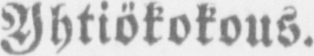Yhtiökokous.
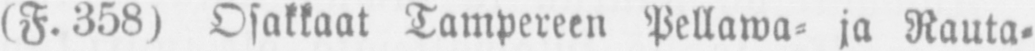(F. 358) Osakkaat Tampereen Pellawa- ja Rauta-
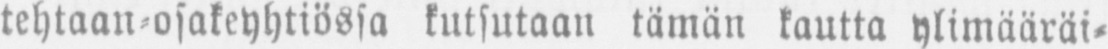tehtaan-osakeyhtiössa kutsutaan tämän kautta ylimääräi-
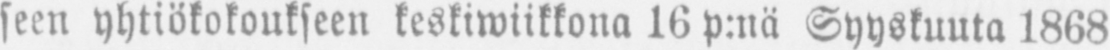seen yhtiökokoukseen keskiwiikkona 16 p:nä Syyskuuta 1868
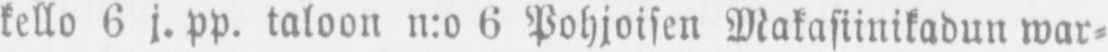kello 6 j. pp. taloon n:o 6 Pohjoisen Makasiinikadun war-
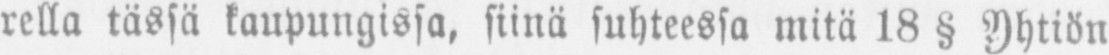rella tässä kaupungissa, siinä suhteessa mitä 18 § Yhtiön
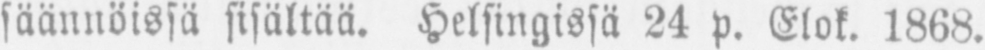säännöissä sisältää. Helsingissä 24 p. Elok. 1868.
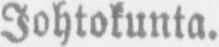Johtokunta.
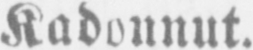Kadonnut.
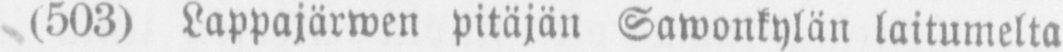(503) Lappajärwen pitäjän Sawonkylän laitumelta
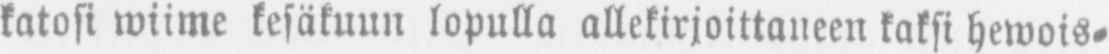katosi wiime kesäkuun lopulla allekirjoittaneen kaksi hewois-
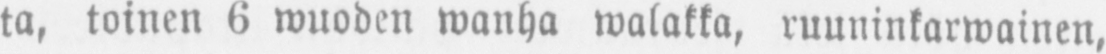ta, toinen 6 wuoden wanha walakka, ruuninkarwainen,
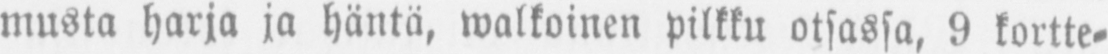musta harja ja häntä, walkoinen pilkku otsassa, 9 kortte-
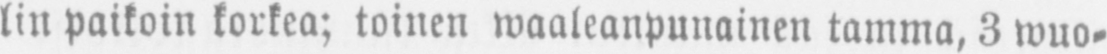lin paikoin korkea; toinen waaleanpunainen tamma, 3 wuo-
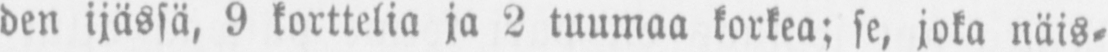den ijässä, 9 korttelia ja 2 tuumaa korkea; se, joka näis-
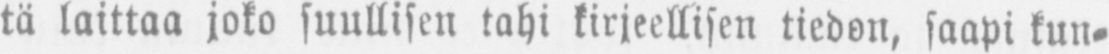tä laittaa joko suullisen tahi kirjeellisen tiedon, saapi kun-
